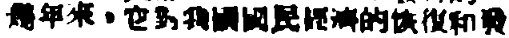幾年來，它對我國國民經濟的恢復和發
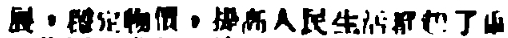展，穩定物價，提高人民生活都起了重
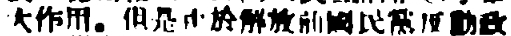大作用。但是由於解放前國民黨反動政
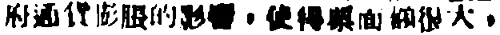府通貨膨脹的影響，使得票面額很大，
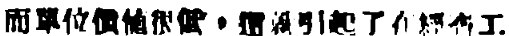而單位價值很低，這就引起了在經濟工
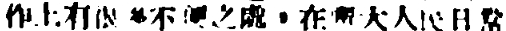作上有很多不便之處，在廣大人民日常
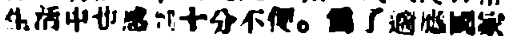生活中也感到十分不便。爲了適應國家
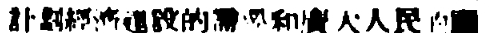計劃經濟建設的需要和廣大人民的願
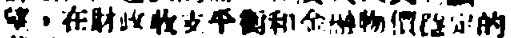望，在財政收支平衡和金融物價穩定的
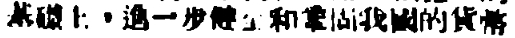基礎上，進一步健全和鞏固我國的貨幣
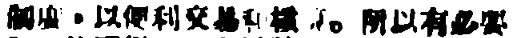制度，以便利交易和核算。所以有必要
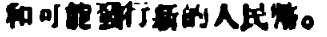和可能發行新的人民幣。
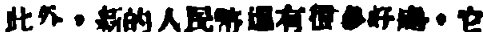此外，新的人民幣還有很多好處，它
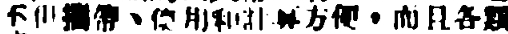不但攜帶、使用和計算方便，而且各類
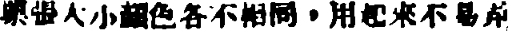票張大小顏色各不相同，用起來不易弄
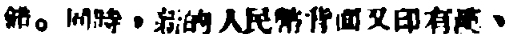錯。同時，新的人民幣背面又印有漢、
